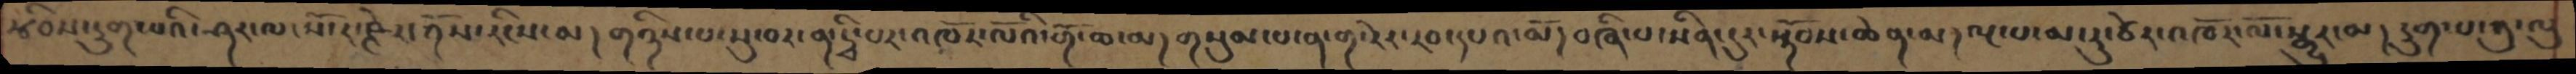རྩིབས་དྲུག་པའི་ཤར་མ་སོ་ར་ཥྜེར་ཀོས་རིངས་མ །གཉིས་པ་སུ་བར་ན་དྭི་པར་འཁོར་ལོའི་་གོ་ཆ་མ། གསུམ་པ་ན་ག་རེར་རབ་དཔའ་མོ། བཞི་པ་སིན་དུར་སྟོབས་ཆེན་མ། ལྔ་པ་མ་རུ་ཙེར་འཁོར་ལོ་སྒྱུར་མ། དྲུག་པ་ཀུ་ལུ
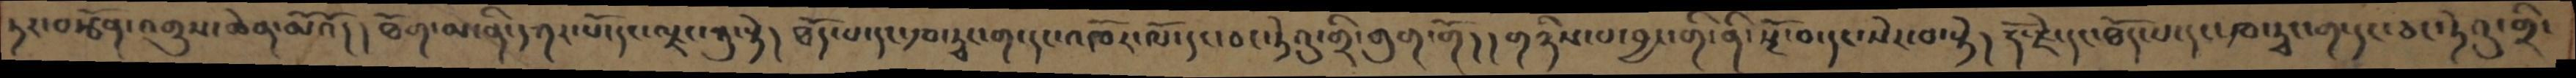ཏར་བརྩོན་འགྲུས་ཆེན་མོའོ། །ཐོག་མ་ནིདཀར་པོ་དང་ལྗང་ཀུ་སྟེ། ཐོད་པ་དང་ཁ་ཏྭང་ག་དང་འཁོར་ལོ་དང་ཅང་ཏེའུ་གྲི་གུག་གོ། །གཉིས་པ་བྱང་གི་ནི་སྔོ་བ་དང་སེར་བ་སྟེ། རྡོ་རྗེ་དང་ཐོད་པ་དང་ཁ་ཏྭང་ག་དང་ཅང་ཏེའུ་གྲི་
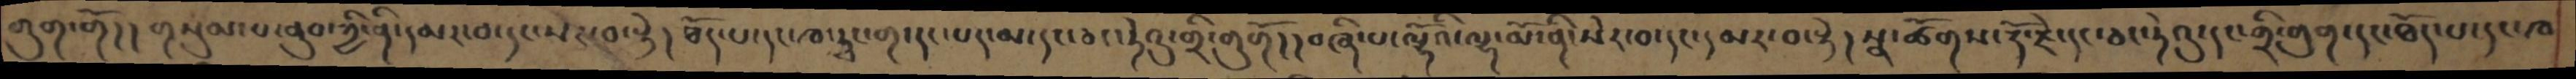གུག་གོ། །གསུམ་པ་ནུབ་ཀྱི་ནི་དམར་བ་དང་སེར་བ་སྟེ།  ཐོད་པ་དང་ཁ་ཊྭང་ག་དང་པད་མ་དང་ཅང་ཏེའུ་གྲི་གུགོ། །བཞི་པ་ལྷོའི་ལྷ་མོ་ནི་སེར་བ་དང་དམར་བ་སྟེ། སྣ་ཚོགས་རྡོ་རྗེ་དང་ཅང་ཏེའུ་དང་གྲི་གུག་དང་ཐོད་པ་དང་ཁ
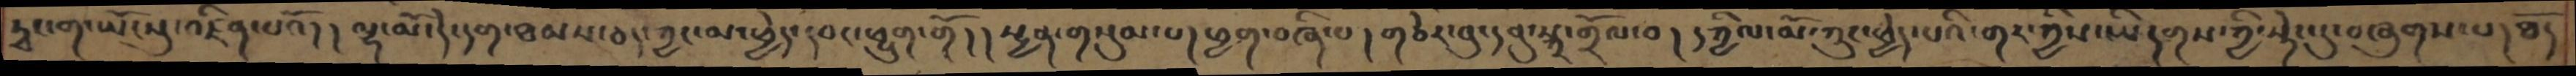ཊྭང་ག་ཡོངསུ་འཛིན་པའོ། །ལྷ་མོ་དེ་དག་ཐམས་ཅད་ཀྱང་མ་ཕྱེད་དབང་ཕྱུག་གོ། །སྤྱན་གསུམ་པད་ཕྱག་བཞི་པ། གཅེར་བུ་དབུ་སྐྲ་གྲོལ་བ། དཀྱིལ་མོ་ཀྲུང་ཕྱེད་པའི་གར་ཀྱིས་ཡིདགས་ཀྱི་སྟེང་དུ་བཞུགས་པ། ཐོད
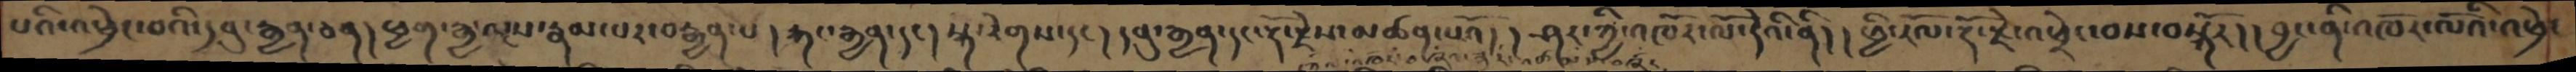པའི་འཕྲེང་བའི་དབུ་རྒྱན་ཅན། ཕྱག་རྒྱ་ལྔས་རྣམ་པར་བརྒྱན་པ། རྐང་རྒྱན་དང། སྐེ་རེགས་དང། དབུ་རྒྱན་དང་རྡོ་རྗེས་མཚན་པའོ། །ཤར་ཀྱི་འཁོར་ལོ་དེའི་ནི། །ཕྱི་རོལ་རྡོ་རྗེ་འཕྲེང་བས་བསྐོར། །བྱང་ནི་འཁོར་ལོའི་འཕྲེང
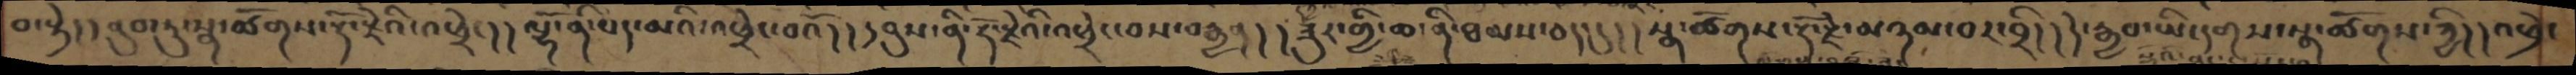བ་སྟེ། །ནུབ་ཏུ་སྣ་ཚོགས་རྡོ་རྗེའི་འཕྲེང། །ལྷོ་ནི་པད་མའི་འཕྲེང་བའོ།། དབུས་ནི་རྡོ་རྗེའི་འཕྲེང་བས་བརྒྱན། །ཟུར་གྱི་ཆ་ནི་ཐམས་ཅད་དུ། །སྣ་ཚོགས་རྡོ་རྗེ་མཉམ་བར་བྲི། །དེ་རྒྱབ་ཡི་དགས་སྣ་ཚོགས་ཀྱི། །འཕྲེང
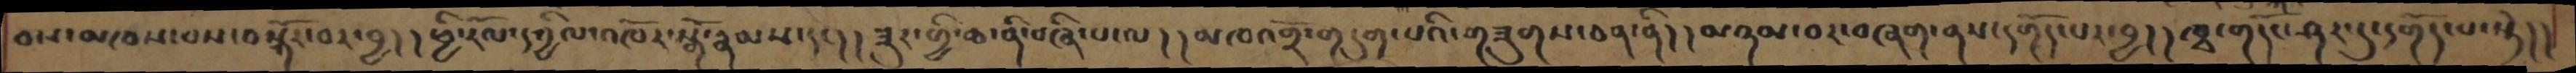བས་མཁས་པས་བསྐོར་བར་བྱ། །ཕྱི་རོལ་དཀྱིལ་འཁོར་སྒོ་རྣམས་དང། །ཟུར་གྱི་ཆ་ནི་བཞི་པ་ལ། །མཁའགྲོ་གདུག་པའི་གཟུགས་ཅན་ནི། །མཉམ་བར་བཞག་ནས་དགོད་པར་བྱ། །ཁྭ་གདོང་ཤར་དུ་དགོད་པ་སྟེ། །
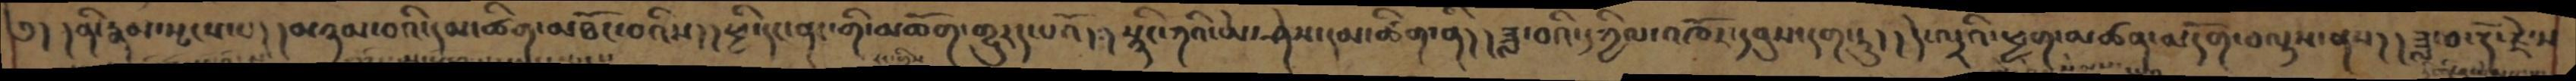༅། །ནི་རྣམ་སྤངས་པ།  །མཉམ་བའི་དམ་ཚིག་མཐོང་བའིས།།ཕྱི་དང་ནང་གི་མཆོག་གྱུརད་པའོ།།སྙིང་ཀའི་ཡེ་ཤེས་དམ་ཚིག་ནི།།ཟླ་བའི་དཀྱིལ་འཁོར་དབུས་དག་ཏུ།།དེ་འདྲའི་ཕྱག་མཚན་མདོག་བལྟས་ནས།།ཟླ་བ་རྡོ་རྗེ་ས་
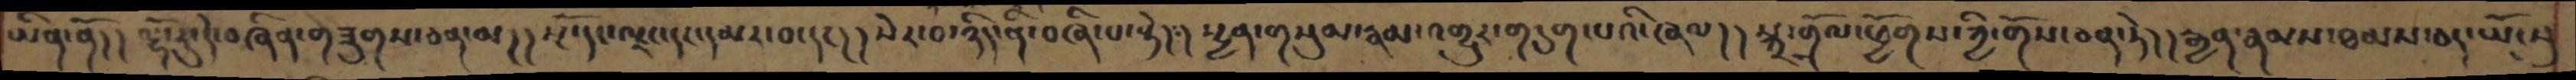ཡིན་ནོ།། ལྷོ་རུ་དེ་བཞིན་གཟུགས་ཅན་མ།། སྔོ་དང་ལྗང་དང་དམར་བ་དང། ། སེར་བ་ཉིད་ནི་བཞི་པ་སྟེ།༴། སྤྱན་གསུམ་རྣམ་འགྱུར་གདུག་པའི་ཞལ། །སྐྲ་གྲོལ་ཕྱོགས་ཀྱི་གོས་ཅན་ཏེ། ། རྒྱན་རྣམས་ཐམས་ཅད་ཡོངསུ
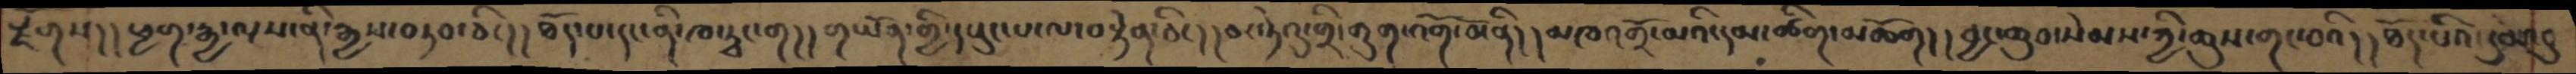སྫོགས། །ཕྱག་རྒྱ་ལྔས་ནི་རྒྱས་བཏབ་ཅིང།།ཐོད་པ་དང་ནི་ཁ་ཏྭང་ག།། གཡོན་གྱི་དཔུང་པ་ལ་བསྟེན་ཅིང། །ཅང་ཏེའུ་གྲི་གུག་འགོ་བོ་ནི། །མཁའགྲོ་མའི་དམ་ཚིག་མཆོག། །བྱང་ཆུབ་སེམས་ཀྱི་ཆུས་གང་བའི། །ཐོད་པའི་དུམ་བུ
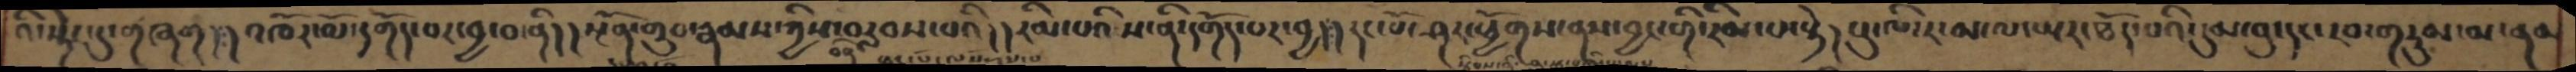འི་སྟེང་དུ་གཞག།།འཁོར་ལོ་དགོད་པར་བྱ་བ་ནི།།སྔོན་གྲུབ་རྣམས་ཀྱིས་བརླབས་པའི།།རིམ་པའིས་ནི་དགོད་པར་བྱ།།དང་པོ་ཤར་ཕྱོགས་ནས་བྱང་གི་རིམ་པ་སྟེ། པུ་ལི་ར་མ་ལ་ཡར་ཐོད་པའི་དུམ་བུ་དང་རབ་གཏུམ་མ་ནམ
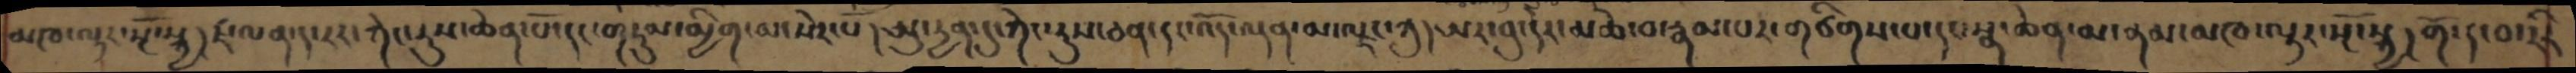མཁ་ལྟར་སྔོ་སྐྱ།ཛ་ལན་ད་རར་ཀེང་རུས་ཆེན་པོ་དང་གཏུམ་མྱིག་མ་སེར་པོ།  ཨུ་དྱན་དུ་ཀེང་རུས་ཅན་དང་འོད་ལྡན་མ་ལྗང་ཀུ།ཨར་བུ་དར་མཆེ་བ་རྣམ་པར་གཙིགས་པ་དང་སྣ་ཆེན་མ་ནམ་མཁ་ལྟར་སྔོ་སྐྱ།གོ་ད་བ་རིར་
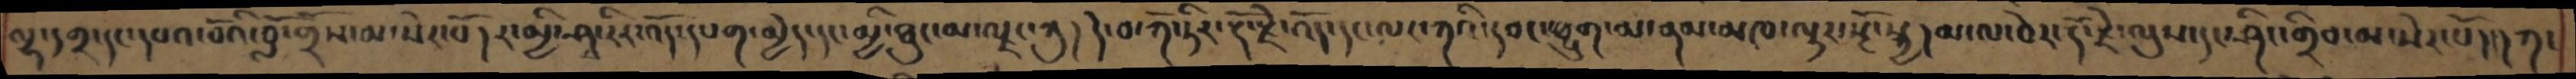ལྷ་དགྲ་དང་དཔའ་བོའི་བློ་གྲོས་མ་སེར་པོ། ར་མྱི་ཤྭ་རིར་འོད་དཔག་མྱེད་དང་མྱི་ཐུང་མ་ལྗང་ཀུ། དེ་བ་ཀོ་ཏིར་རྡོ་རྗེ་འོད་དང་ལང་ཀའི་དབང་ཕྱུག་མ་ནམ་མཁ་ལྟར་སྔོ་སྐྱ། མ་ལ་བེར་རྡོ་རྗེ་ལུས་དང་ཤིང་གྲིབ་མ་སེར་པོ་དང།ཀ་
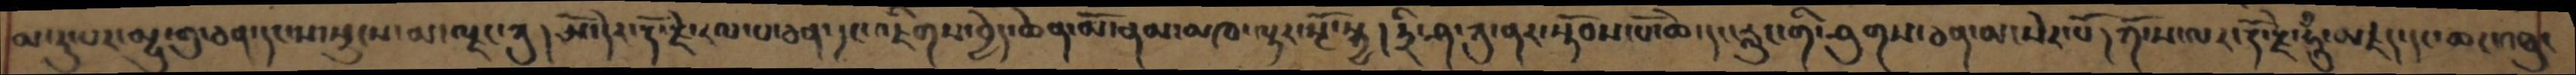མ་རུ་པར་མྱུ་གུ་ཅན་དང་ས་སྲུངས་མ་ལྗང་ཀུ།  ཨོ་དེར་རྡོ་རྗེ་རལ་པ་ཅན་དང་འཇིགས་བྱེད་ཆེན་མོ་ནམ་མཁ་ལྟར་སྔོ་སྐྱ།  ཏྲི་ཤ་ཀུ་ཤར་སྟོབས་པ་ཆེ་དང་རླུང་གི་ཤུགས་ཅན་མ་སེར་པོ། ཀོ་ས་ལར་རྡོ་རྗེ་ཧཱུྃ་མཛད་དང་ཆང་འཐུང
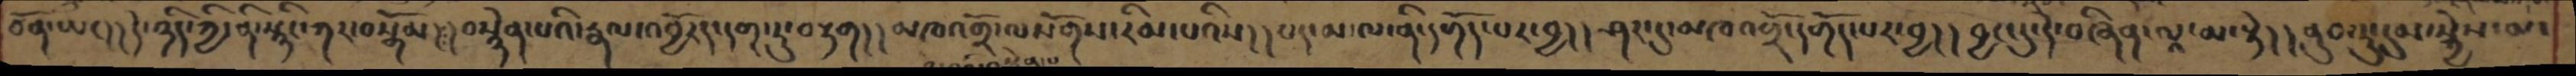ཅོན་ཡང། །དེ་ཉིད་ཀྱི་ནི་སྙིང་ཀར་བསྒོམ། །བསྙེན་པའི་རྣལ་འབྱོརད་དག་ཏུ་བརྟག། །མཁའགྲོ་ལསོགས་རིམ་པའིས། །པད་མ་ལ་ནི་དགོད་པར་བྱ། །ཤར་དུ་མཁའགྲོ་དགོད་པར་བྱ། །བྱང་དུ་དེ་བཞིན་ལཱ་མ་སྟེ། །ནུབ་ཏུ་དུམ་སྐྱེས་མ་
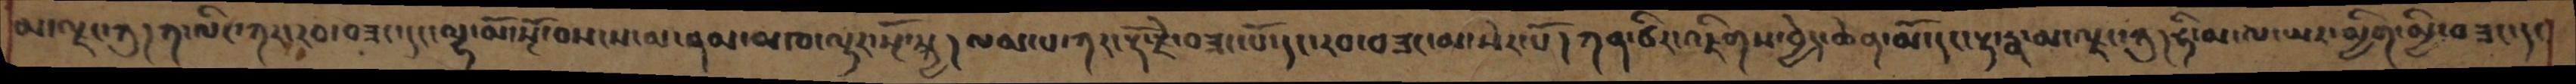མ་ལྗང་ཀུ།ཀ་ལིང་ཀར་རབ་བཟང་དང་ལྷ་མོ་སྔོ་བསངས་མ་ནམ་མཁའ་ལྟར་སྔོ་སྐྱ ། ལམ་པ་ཀར་རྡོ་རྗེ་བཟང་པོ་དང་རབ་བཟང་མ་སེར་པོ ། ཀན་ཙིར་འཇིགས་བྱེད་ཆེན་མོ་དང་རྟ་རྣ་མ་་ལྗང་ཀུ།ཧི་མ་ལ་ཡར་མྱིག་མྱི་བཟང་དང།
